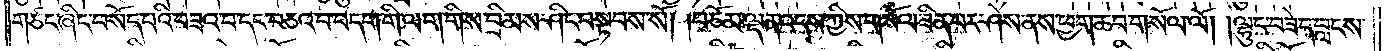གཙང་ཞིང་བསོད་པའི་བཟའ་བ་དང་བཅའ་བ་བདག་གི་ལག་གིས་བྲིམས་ཤིང་བསྟབས་སོ། །བཅོམ་ལྡན་འདས་ཀྱིས་གསོལ་ཟིན་པར་ཤེས་ནས་ཕྱག་ཆབ་གསོལ་ལོ། །ལྷུང་བཟེད་བླངས་
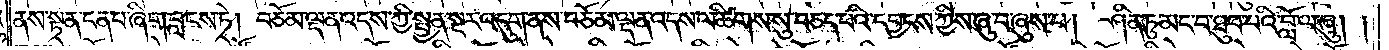ནས་སྟན་ངན་པ་ཞིག་བླངས་ཏེ། བཅོམ་ལྡན་འདས་ཀྱི་སྤྱན་སྔར་འདུག་ནས་བཅོམ་ལྡན་འདས་ལ་ཚིགས་སུ་བཅད་པའི་དབྱངས་ཀྱིས་ཞུ་བ་ཞུས་པ། ཤིན་ཏུ་མང་བ་ཐུབ་པའི་བློ་ལ་ཞུ། །
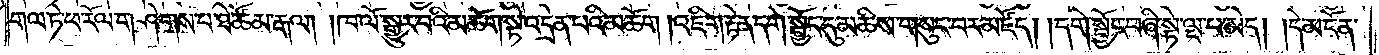གལ་ཏེ་ཕ་རོལ་གཤེགས་པ་ཐེ་ཚོམ་རྒལ། །ཁ་ལོ་སྒྱུར་བའི་མཆོག་སྟེ་འདྲེན་པའི་མཆོག །འཇིག་རྟེན་དགེ་སྦྱོང་དུ་མཆིས་གསུང་བར་མཛོད། །དགེ་སྦྱོང་བཞི་སྟེ་ལྔ་པ་མེད། །དེ་མངོན་
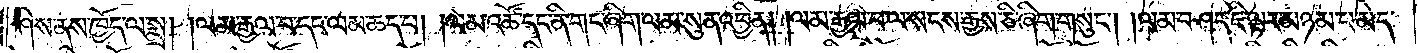ཤེས་ནས་ཁྱོད་ལ་སྨྲ། །ལམ་རྒྱལ་བ་དང་ལམ་ཆད་པ། །ལམ་འཚོ་དང་ནི་གང་ཞིག་ལམ་སུན་འབྱིན། །ལམ་རྒྱལ་བ་ལ་སངས་རྒྱས་ཅི་ཞིག་གསུང༌། །ལམ་བཤད་ཇི་ལྟར་མཉམ་པ་མེད་
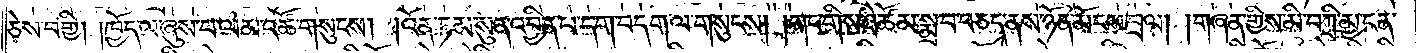ཅེས་བགྱི། །ཁྱོད་ལ་ཞུས་པ་ལམ་འཚོ་གསུངས། །འོན་ཏམ་སུན་འབྱིན་པ་དག་བདག་ལ་གསུངས། །གང་གིས་ཐེ་ཚོམ་སྨྲ་བ་བཅད་ནས་ཉོན་མོངས་བྲལ། །གཞན་གྱིས་མི་བཀྲི་མྱ་ངན་
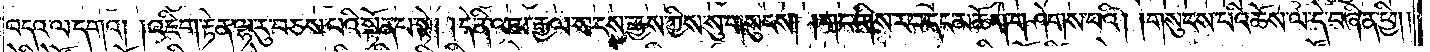འདའ་ལ་དགའ། །འཇིག་རྟེན་ལྷ་རུ་བཅས་པའི་སྟོན་པ་སྟེ། དེ་ནི་ལམ་རྒྱལ་སངས་རྒྱས་ཀྱིས་སུ་གསུངས། །གང་གིས་ར་བ་དང་མཆོག་གཤེགས་པའི། །གསུངས་པའི་ཆོས་ལ་དེ་བཞིན་ཕྱི། །
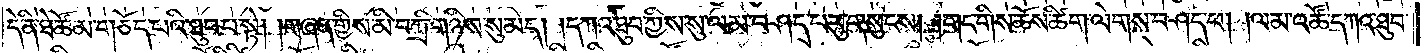དེ་ནི་ཐེ་ཚོམ་གཅོད་པའི་ཐུབ་པ་སྟེ། །གཞན་གྱིས་མི་བཀྲི་གཉིས་སུ་མེད། །དཀའ་ཐུབ་ཀྱིས་སུ་ལམ་བཤད་པ་རུ་གསུངས། །གང་གིས་ཆོས་ཚིག་ལེགས་བཤད་པ། །ལམ་འཚོ་དཀའ་ཐུབ་
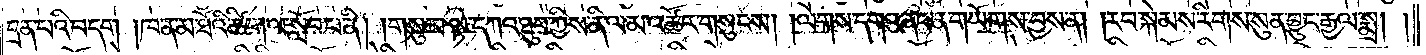དྲན་པའི་བདག །ཁ་ན་མ་ཐོའི་ཚིག་ལ་སློབ་པ་ནི། །གསུམ་སྟེ་དཀའ་ཐུབ་ཀྱིས་ནི་ལམ་འཚོར་གསུངས། །ལེགས་དགའ་ནང་ན་གཡོགས་བྱས་ན། །རབ་སྐེམས་རིགས་སུན་བྱུང་རྒྱལ་སྨྲ། །
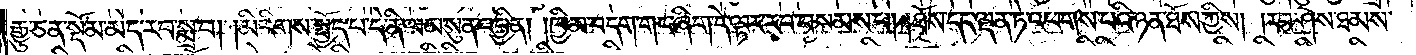རྒྱུ་ཅན་སྡོམ་མེད་རབ་སྨྲ་བ། །མི་རིགས་སྤྱོད་པ་དེ་ནི་ལམ་སུན་འབྱིན། །ཁྱིམ་བདག་གང་ཞིག་དེ་ལྟར་རབ་བསམས་པ། །ཐོས་དང་ལྡན་ཏེ་འཕགས་པའི་ཉན་ཐོས་ཀྱིས། །རབ་ཤེས་ཐམས་
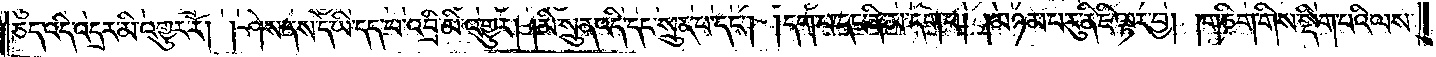ཅད་འདི་འདྲར་མི་འགྱུར་རོ། །ཤེས་ནས་དེ་ཡི་དད་པ་འབྲི་མི་འགྱུར། །མི་སྲུན་འདི་དང་སྲུན་པ་དང༌། །དག་པ་དང་ནི་མ་དག་པ། །མཉམ་པ་རུ་ནི་ཇི་ལྟར་བྱ། །གཅིག་གིས་སྡིག་པའི་ལས་
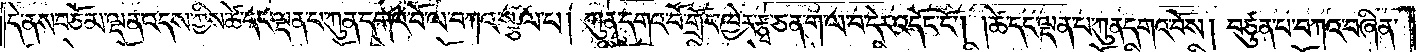དེ་ནས་བཅོམ་ལྡན་འདས་ཀྱིས་ཚེ་དང་ལྡན་པ་ཀུན་དགའ་བོ་ལ་བཀའ་སྩལ་པ། ཀུན་དགའ་བོ་གྲོང་ཁྱེར་རྩྭ་ཅན་ག་ལ་བ་དེར་འདོང་ངོ༌། །ཚེ་དང་ལྡན་པ་ཀུན་དགའ་བོས། བཙུན་པ་བཀའ་བཞིན་
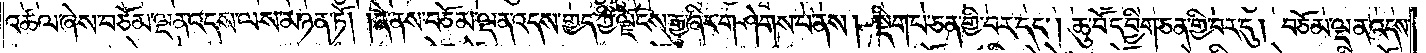འཚལ་ཞེས་བཅོམ་ལྡན་འདས་ལས་མཉན་ཏོ། །དེ་ནས་བཅོམ་ལྡན་འདས་གྱད་ཀྱི་ལྗོངས་རྒྱུ་ཞིང་གཤེགས་པ་ནས། སྡིག་པ་ཅན་གྱི་བར་དང༌། ཆུ་བོ་དབྱིག་ཅན་གྱི་བར་དུ། བཅོམ་ལྡན་འདས་
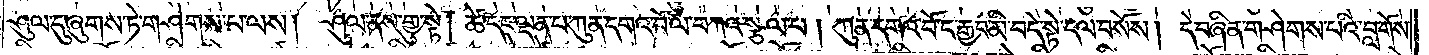ཤུལ་དུ་ཞུགས་ཏེ་གཤེགས་པ་ལས། ཤུལ་ནས་གྱུ་སྟེ། ཚེ་དང་ལྡན་པ་ཀུན་དགའ་བོ་ལ་བཀའ་སྩལ་པ། ཀུན་དགའ་བོ་ང་རྒྱབ་མི་བདེ་སྟེ་ངལ་བསོས། །དེ་བཞིན་གཤེགས་པའི་བླ་གོས་
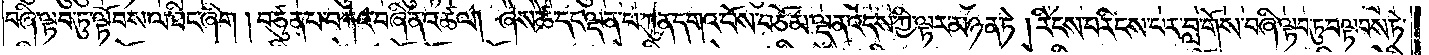བཞི་ལྟབ་ཏུ་ལྟོབས་ལ་ཐིང་ཞིག །བཙུན་པ་བཀའ་བཞིན་འཚལ། ཞེས་ཚེ་དང་ལྡན་པ་ཀུན་དགའ་བོས་བཅོམ་ལྡན་འདས་ཀྱི་ལྟར་མཉན་ཏེ། རིངས་པ་རིངས་པར་བླ་གོས་བཞི་ལྟབ་ཏུ་བལྟབས་ཏེ་
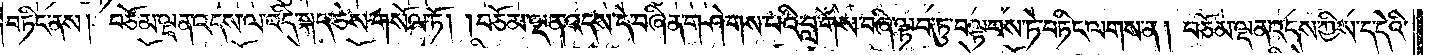བཏིང་ནས། བཅོམ་ལྡན་འདས་ལ་འདི་སྐད་ཅེས་གསོལ་ཏོ། །བཅོམ་ལྡན་འདས་དེ་བཞིན་གཤེགས་པའི་བླ་གོས་བཞི་ལྟབ་ཏུ་བལྟབས་ཏེ་བཏིང་ལགས་ན། བཅོམ་ལྡན་འདས་ཀྱིས་ད་དེའི་
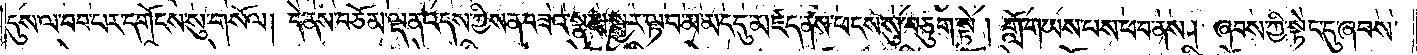དུས་ལ་བབ་པར་དགོངས་སུ་གསོལ། དེ་ནས་བཅོམ་ལྡན་འདས་ཀྱིས་ན་བཟའ་སྣམ་སྦྱར་ལྟབ་མ་མང་དུ་མཛད་ནས་ཕངས་སུ་བཅུག་སྟེ། གློ་གཡས་པས་ཕབ་ནས། ཞབས་ཀྱི་སྟེང་དུ་ཞབས་
